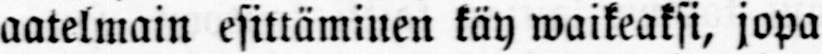aatelmain esittäminen käy waikeaksi, jopa
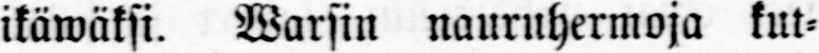ikäwäksi. Warsin nauruhermoja kut-
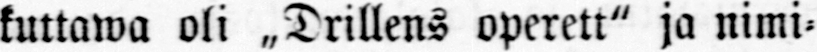kuttawa oli ˶Drillens operett" ja nimi-
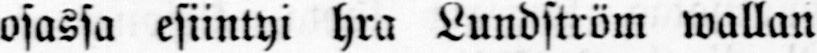osassa esiintyi hra Lundström wallan
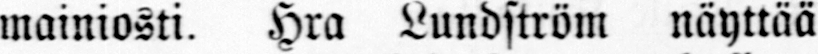mainiosti. Hra Lundström näyttää
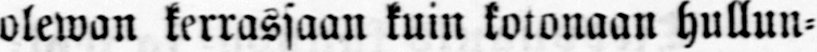olewan kerrassaan kuin kotonaan hullun-
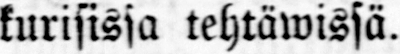kurisissa tehtäwissä.
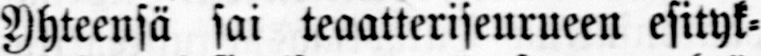Yhteensä sai teaatteriseurueen esityk-
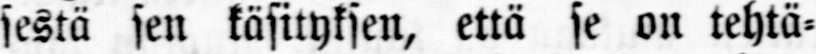sestä sen käsityksen, että se on tehtä-
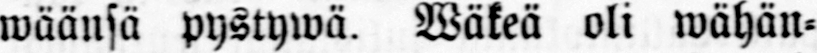wäänsä pystywä. Wäkeä oli wähän-
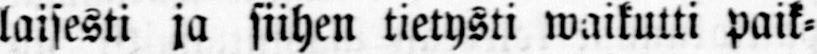laisesti ja siihen tietysti waikutti paik-
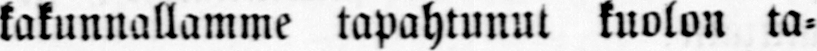kakunnallamme tapahtunut kuolon ta-
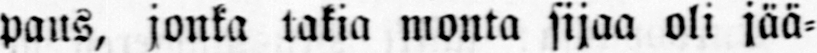paus, jonka takia monta sijaa oli jää-
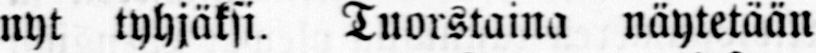nyt tyhjäksi. Tuorstaina näytetään
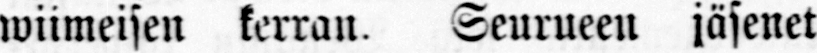wiimeisen kerran. Seurueen jäsenet
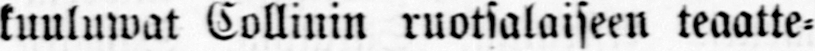kuuluwat Collinin ruotsalaiseen teaatte-
